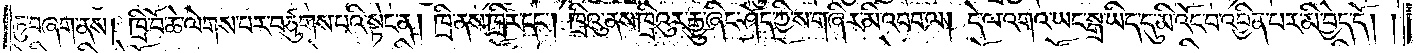ཏུ་བཞག་ནས། ཁྲི་བོ་ཆེ་ལེགས་པར་བཙུགས་པའི་སྟེང་ན། ཁྲི་ནས་ཁྲིར་དང༌། ཁྲིའུ་ནས་ཁྲིའུར་རྒྱུ་ཞིང་ཤོད་ཀྱིས་གཞིར་མི་འབབ་ལ། དེ་ལ་འགའ་ཡང་སྒྲ་ཡིད་དུ་མི་འོང་བ་འབྱིན་པར་མི་བྱེད་དོ། །
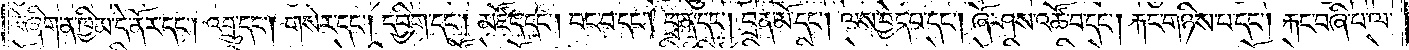རེ་ཞིག་ན་ཁྱིམ་དེ་ནོར་དང༌། འབྲུ་དང༌། གསེར་དང༌། དབྱིག་དང༌། མཛོད་དང༌། བང་བ་དང༌། བྲན་དང༌། བྲན་མོ་དང༌། ལས་བྱེད་པ་དང༌། ཞོ་ཤས་འཚོ་བ་དང༌། རྐང་གཉིས་པ་དང༌། རྐང་བཞི་པ་ལ་
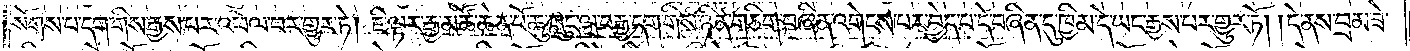སོགས་པ་དག་གིས་རྒྱས་པར་འཕེལ་བར་གྱུར་ཏེ། ཇི་ལྟར་རྒྱ་མཚོ་ཆེན་པོ་ཆུ་ཀླུང་ལྔ་བརྒྱ་དག་གིས་ཉིན་གཅིག་བཞིན་འགེངས་པར་བྱེད་པ་དེ་བཞིན་དུ་ཁྱིམ་དེ་ཡང་རྒྱས་པར་གྱུར་ཏོ། །དེ་ནས་བྲམ་ཟེ་
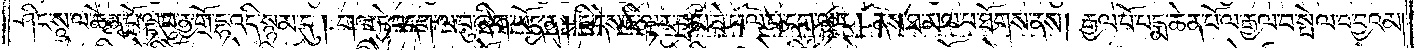ཤིང་སཱ་ལ་ཆེན་པོ་ལྟ་བུ་ནྱ་གྲོ་དྷ་འདི་སྙམ་དུ། གལ་ཏེ་བདག་ལ་བུ་ཞིག་ཡོད་ན། ཇི་དེས་ཇི་ལྟར་བྲམ་ཟེ་ཕལ་པ་དག་ལྟར། ནས་ཐ་མལ་པ་ཐོགས་ནས། རྒྱལ་པོ་པདྨ་ཆེན་པོ་ལ་རྒྱལ་བ་སྤེལ་བ་བྱའམ།
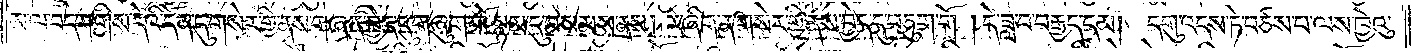མ་ལ་བདག་གིས་དེའི་དོན་དུ་གསེར་གྱི་ནས་གཞན་བྱེད་དུ་གཞུག་གོ་སྙམ་དུ་བསམས་ནས། རེ་ཞིག་ན་གསེར་གྱི་ནས་བྱེད་དུ་བཅུག་གོ །དེ་ཟླ་བ་བརྒྱད་དམ། དགུ་འདས་ཏེ་བཙས་པ་ལས་ཁྱེའུ་
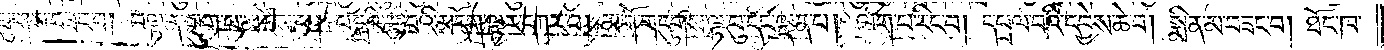གཟུགས་བཟང་བ། བལྟ་ན་སྡུག་པ་མཛེས་པ། པདྨའི་རྩ་བའི་མདོག་ལྟར་དཀར་བ། མགོ་གདུགས་ལྟ་བུ་དང་ལྡན་པ། ལག་པ་རིང་བ། དཔྲལ་བའི་དབྱེས་ཆེ་བ། སྨིན་མ་བཟང་བ། ཐོང་ཁ་
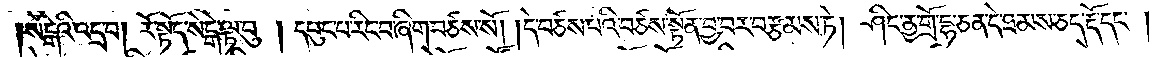སེངྒེའི་འདྲ་བ། རོ་སྟོད་སེངྒེ་ལྟ་བུ། དཔུང་པ་རིང་བ་ཞིག་བཙས་སོ། །དེ་བཙས་པའི་བཙས་སྟོན་བྱ་བར་བརྩམས་ཏེ། ཤིང་ནྱ་གྲོ་དྷ་ཅན་དེ་ཐམས་ཅད་རྡོ་དང་
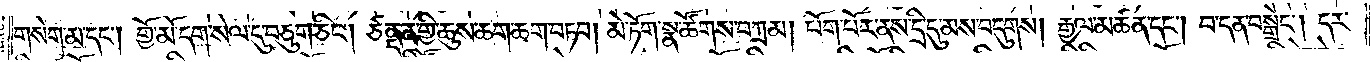གསེག་མ་དང༌། གྱོ་མོ་དག་སེལ་དུ་བཅུག་ཅིང༌། ཙནྡན་གྱི་ཆུས་ཆག་ཆག་བཏབ། མེ་ཏོག་སྣ་ཚོགས་བཀྲམ། པོག་པོར་ནས་དྲི་དུ་མས་བདུགས། རྒྱལ་མཚན་དང༌། བ་དན་བསྒྲེང༌། དར་
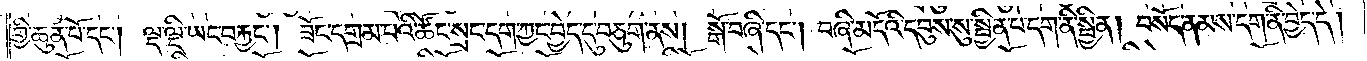གྱི་ཆུན་པོ་དང༌། ལྡ་ལྡི་ཡང་བརྐྱང༌། ཟོང་དགྲམ་པའི་ཚོང་སྲང་དག་ཀྱང་བྱེད་དུ་བཅུག་ནས། སྒོ་བཞི་དང༌། བཞི་མདོའི་དབུས་སུ་སྦྱིན་པ་དག་ནི་སྦྱིན། བསོད་ནམས་དག་ནི་བྱེད་དེ།
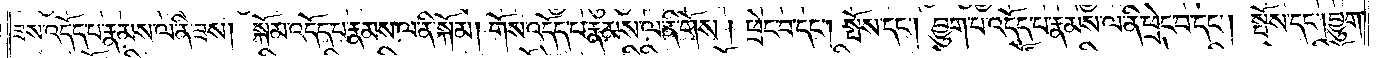ཟས་འདོད་པ་རྣམས་ལ་ནི་ཟས། སྐོམ་འདོད་པ་རྣམས་ལ་ནི་སྐོམ། གོས་འདོད་པ་རྣམས་ལ་ནི་གོས། ཕྲེང་བ་དང༌། སྤོས་དང༌། བྱུག་པ་འདོད་པ་རྣམས་ལ་ནི་ཕྲེང་བ་དང༌། སྤོས་དང༌། བྱུག་
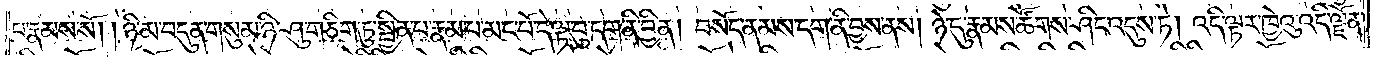པ་རྣམས་སོ། །ཉི་མ་བདུན་གསུམ་ཉི་ཤུ་གཅིག་ཏུ་སྦྱིན་པ་རྣམ་པ་མང་པོ་དེ་ལྟ་བུ་དག་ནི་བྱིན། བསོད་ནམས་དག་ནི་བྱས་ནས། ཉེ་དུ་རྣམས་ཚོགས་ཤིང་འདུས་ཏེ། འདི་ལྟར་ཁྱེའུ་འདི་ལྗོན་
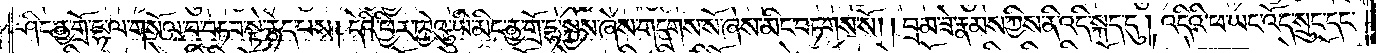ཤིང་ནྱ་གྲོ་དྷ་ལ་གསོལ་བ་བཏབ་སྟེ་རྙེད་པས། དེའི་ཕྱིར་ཁྱེའུ་ཡི་མིང་ནྱ་གྲོ་དྷ་སྐྱེས་ཞེས་གདགས་སོ་ཞེས་མིང་བཏགས་སོ། །བྲམ་ཟེ་རྣམས་ཀྱིས་ནི་འདི་སྐད་དུ། འདིའི་ཕ་ཡང་འོད་སྲུང་དང་
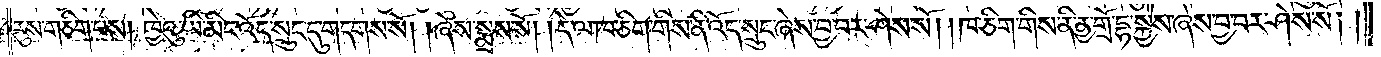རུས་གཅིག་པས། ཁྱེའུ་ཡི་མིང་འོད་སྲུང་དུ་གདགས་སོ། །ཞེས་སྨྲས་སོ། །དེ་ལ་ཁ་ཅིག་གིས་ནི་འོད་སྲུང་ཞེས་བྱ་བར་ཤེས་སོ། །ཁ་ཅིག་གིས་ནི་ནྱ་གྲོ་དྷ་སྐྱེས་ཞེས་བྱ་བར་ཤེས་སོ། །
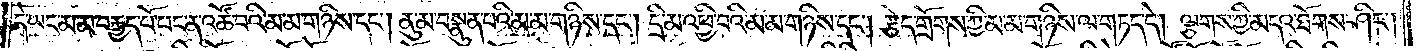དེ་ཡང་མ་མ་བརྒྱད་པོ་པང་ན་འཚོ་བའི་མ་མ་གཉིས་དང༌། ནུ་མ་བསྣུན་པའི་མ་མ་གཉིས་དང༌། དྲི་མ་འཕྱི་བའི་མ་མ་གཉིས་དང༌། རྩེད་གྲོགས་ཀྱི་མ་མ་གཉིས་ལ་གཏད་དེ། ལྕགས་ཀྱི་མདའ་ཐོགས་ཤིང་
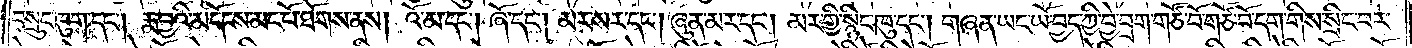བསྲུང་ཁུག་དང༌། རྨ་བྱའི་མདོངས་མང་པོ་ཐོགས་ནས། འོ་མ་དང༌། ཞོ་དང༌། མར་སར་དང༌། ཞུན་མར་དང༌། མར་གྱི་སྙིང་ཁུ་དང༌། གཞན་ཡང་ཡོ་བྱད་ཀྱི་བྱེ་བྲག་གཙོ་བོ་གཙོ་བོ་དག་གིས་སྲིང་བར་
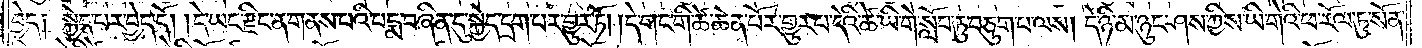བྱེད༑ སྐྱེད་པར་བྱེད་དོ། །དེ་ཡང་རྫིང་ན་གནས་པའི་པདྨ་བཞིན་དུ་སྐྱེད་དྲག་པར་གྱུར་ཏོ། །དེ་གང་གི་ཚེ་ཆེན་པོར་གྱུར་པ་དེའི་ཚེ་ཡི་གེ་སློབ་ཏུ་བཅུག་པ་ལས། དེ་ཉི་མ་ཉུང་ཤས་ཀྱིས་ཡི་གེའི་ཕ་རོལ་ཏུ་སོན་
